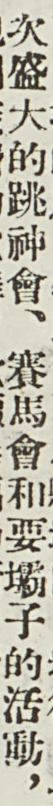次盛大的跳神會、賽馬會和耍壩子的活動，
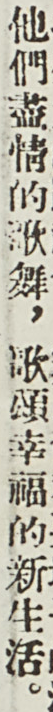他們盡情的歌舞，歌頌幸福的新生活。
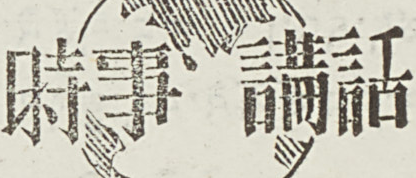時事 講話
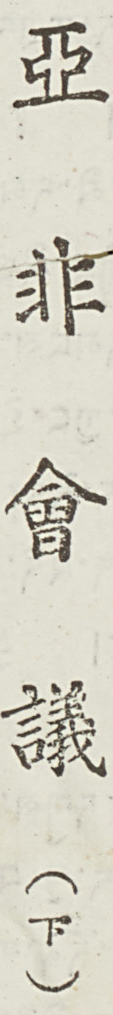亞 非 會 議（下）
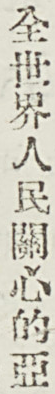全世界人民關心的亞
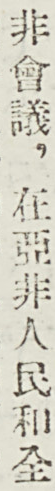非會議，在押飛人民和全
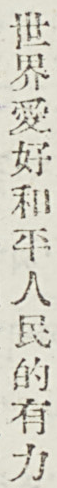世界愛好和平人民的有力
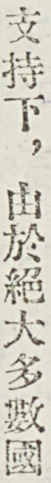支持下，由於絕大多數國
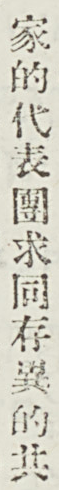家的代表團求同存異的共
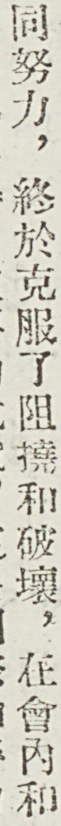同努力，終於克服了阻撓和破壞，在會內和
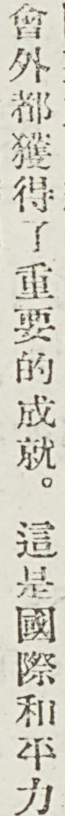會外都獲得了重要的成就。這是國際和平力
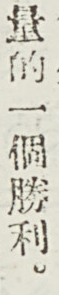量的一個勝利。
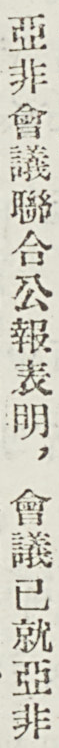亞非會議聯合公報表明，會議已就亞非
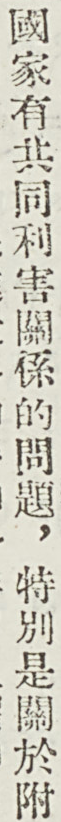國家有共同利害關係的問題，特別是關於附
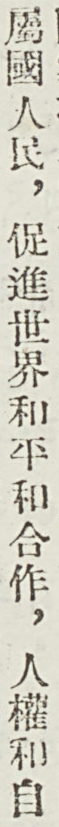屬國人民，促進世界和平和合作，人權和自
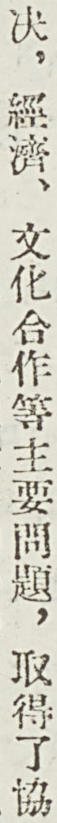決，經濟、文化合作等主要問題，取得了協
